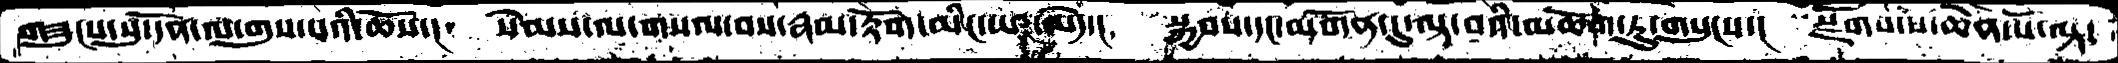གཟུངས་སུ་དོན་ལ་གུས་པའི་ཆོས་།  སེམས་ལ་གསལ་བས་རྣམ་རྟོག་མིང་ཡང་མེད་།  སྐྱབས་དང་མགོན་དུ་ལྟ་བའི་མཆོག་ཏུ་གསུངས་།  སྫོགས་པ་ཆེན་པོ་ལྟ་
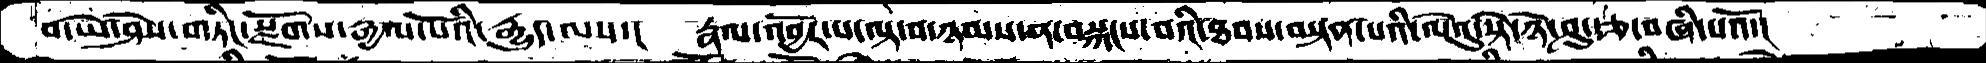བ་ཡེ་ཤེས་གཏིང་སྫོགས་རྒྱལ་པོའི་རྒྱུད་ལས་།  རྣམ་འབྱོར་པ་ལྟ་བ་ཉམས་ན་བསྐངས་བའི་ཐབས་བསྟན་པའི་ལེའུ་སྟེ་ཉེ་ཤུ་རྩ་བཞི་པའོ་།
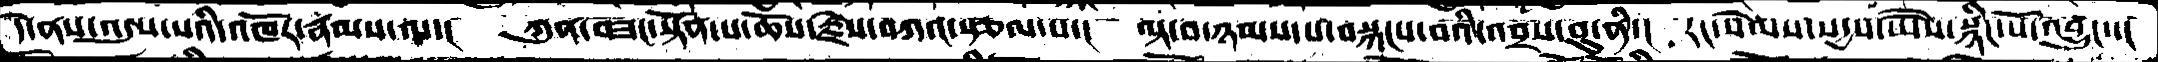དེ་ནས་འདུས་པའི་འཁོར་རྣམས་ལ་།  ཀུན་བཟང་སྟོན་པ་ཆོས་རྗེས་བཀའ་སྩལ་པ་།  ལྟ་བ་ཉམས་པ་བསྐངས་བའི་འབྲས་བུ་ནི་།  རང་སེམས་སདྱས་ཡཻས་སྙིང་པོ་འབྱུང་་།
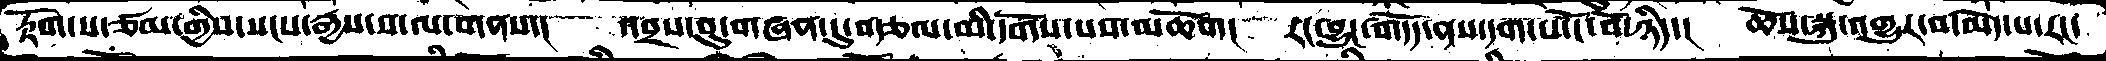རྟོག་པ་ཙམ་གྱིས་སངས་རྒྱས་ས་ལ་གནས་།  འབྲས་བུ་གཞན་དུ་བརྩལ་མི་དགོས་པས་མཆོག།   རང་བྱུང་གདོད་ནས་དག་པ་ངོ་བོ་ཉིད་།  ཆོས་སྐུ་འགྱུར་བ་མེད་པ་རང་
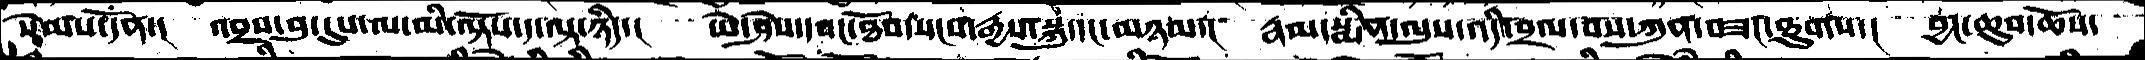སེམས་དོན་།   འབྲས་བུ་དུས་ལ་མི་ལྟོས་ད་ལྟ་ཉིད་།  ཡེ་ཤེས་དབང་ཐོབ་སངས་རྒྱས་སྐུ་དང་མཉམ་།  རྣམ་སྨིན་ལུས་འདི་བྲལ་བས་ཀུན་བཟང་ཐུགས་།  བྱང་ཆུབ་ཆོས་
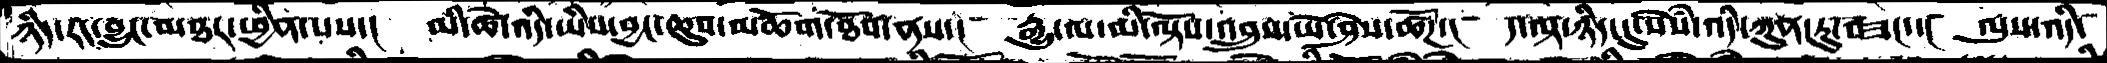ཉིད་རང་བྱུང་མཐར་ཕྱིན་པས་།  མི་ཚེ་འདི་ཡིས་བྱང་ཆུབ་མཆོག་ཐོབ་ནས་།  རྒྱུ་ལ་མི་ལྟོས་འབྲུས་ཡེ་ཤེས་ཚོཌ་།  ད་ལྟ་ཉིད་དུ་སེཾས་འདི་ཀུན་ཏུ་བཟང་་།  ལུས་འདི་
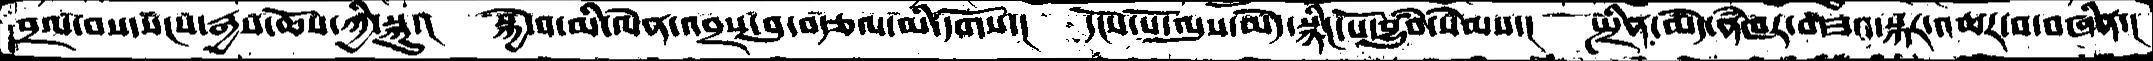བྲལ་བས་སངས་རྒྱས་ཆོས་ཀྱི་སྐུ་།   སྐྱེ་བ་མི་ལེན་འབྲས་བུ་བརྩལ་མི་དགོས་།  དངོས་པོ་ལུས་མེད་སྙིང་པོ་བྱུཾབ་སེམས་།  སྤྲིན་མེད་ནཾཁར་གཟའ་སྐར་འཆར་བ་བཞིན་།
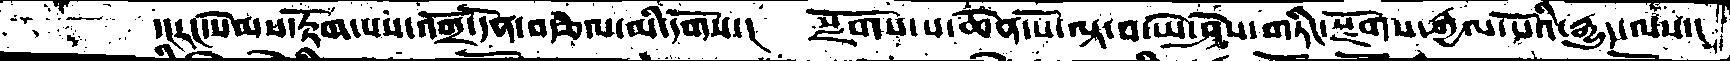ད།རང་སེམས་རྟོག་པས་འགྲོ་དོན་བརྩལ་མི་དགོས་།  སྫོགས་པ་ཆེན་པོ་ལྟ་བ་ཡེ་ཤེས་གཏིང་སྫོགས་རྒྱལ་པོའི་རྒྱུད་ལས་།
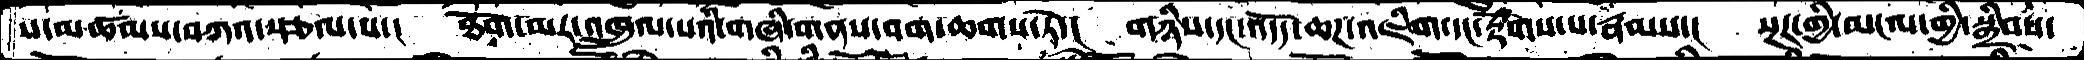ས་མཚམས་བཀའ་རྩལ་པ་།  ཐོག་མར་འཁྲུལ་པའི་གཞི་གནས་བག་ཆགས་ཏེ་།  གཉིས་དང་འདོད་ཆཌ་འཇིག་དང་རྟོགས་པ་རྣམས་།  སྔར་གྱི་མངལ་གྱི་སྒྲིབས་
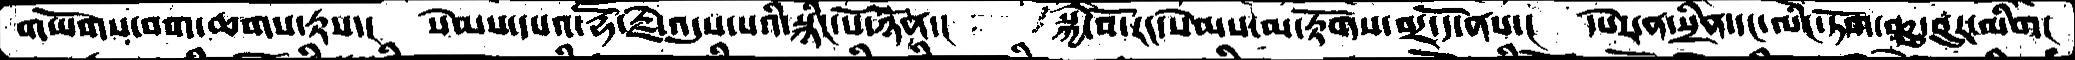གཡོགས་བག་ཆགས་རྟས་།  སེམས་དཔའ་རྡོ་རྗེ་འདུས་པའི་སྙིང་པོ་ཉོན་།  སྐྱེ་བོ་རང་སེམས་མ་རྟོགས་བར་དོ་ནས་།  དཔེར་ན་སྲིན་དང་ལིང་ཏོག་ཆུ་བུར་མིག།
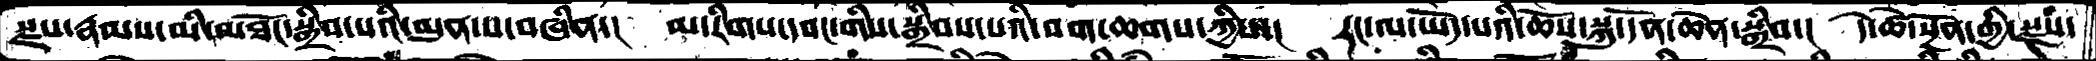སྫས་རྣམས་མི་མཐོང་སྒྲིབ་པའི་མུན་པ་བཞིན་།  མ་རིགས་དབང་གིས་སྒྲིབས་པའི་བག་ཆགས་ཀྱིས་།  རང་ལ་ཡོད་པའི་ཆོས་སྐུ་དོན་ཆེན་སྒྲིབ་།  དེ་ཚེ་སྔོན་གྱི་སྫས་
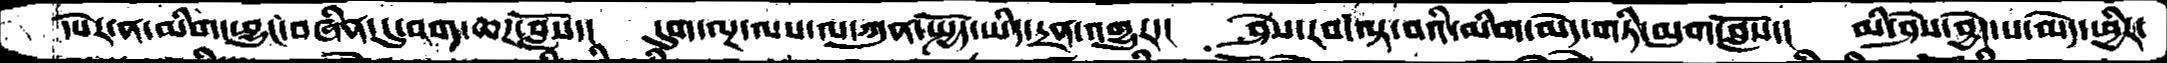དཔེར་ན་མིག་ཕྱུང་བཞིན་དུ་བག་ཆཌ་བློས་།   དུག་ལྔ་ལས་ལ་ཀུན་སྤྱོད་ཡིད་དྲན་འགྱུར་།  ཤེས་རབ་ལྟ་བའི་མིག་མེད་གཏི་མུག་བློས་།  མི་ཤེས་བྱེད་པ་མེད་ཕྱིར་
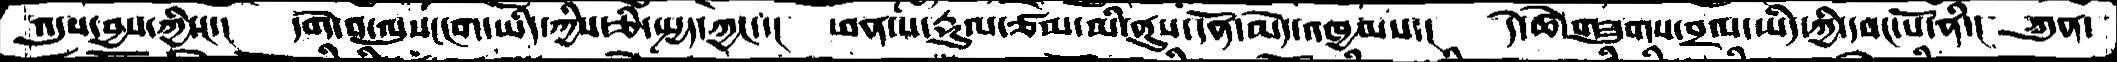འདུས་བྱས་ཀྱིས་།  དགེ་བ་ལུས་ངག་ཡིད་ཀྱིས་ཅི་སྤྱད་ཀྱང་་།  ཕན་པ་རྡུལ་ཙམ་མི་ནུས་དོན་མེད་འཁྱམས་།  དེ་ཚེ་གཟུགས་བྲལ་ཡིད་ཀྱི་དབང་པོ་ནི་།  ཀུན་
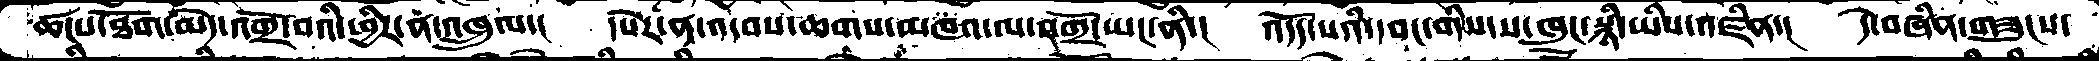ཚངས་ཐོག་མེད་འགྲོ་བའི་ཕྱིར་ན་འཁྲུལ་།   དཔེར་ན་འདབས་ཆགས་མཁའ་ལ་འགྲོ་ཡང་ནི་།   འདོད་པའི་དབང་གིས་ས་ཁུང་སྙི་ཡིས་འཛིན་།  དེ་བཞིན་གཟུངས་
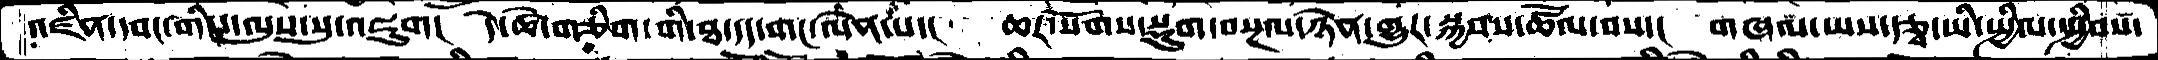འཛིན་དབང་གིས་ལུས་སུ་འཇུག།   དེ་ཚེ་གཅིག་གི་ཐ་དད་གང་ལེན་པ་།   ཆར་སོགས་སྡུག་བསྔལ་ཉེན་གྱུར་སྐྱབས་ཚོལ་བས་།  གཞལ་ཡས་རྩྭ་ཡི་སྤྱིལ་སྤྱིབས་
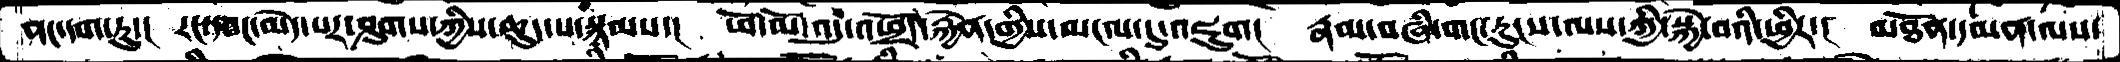ནང་དག་ཏུ་།   རང་དབང་མེད་པར་ཤུགས་ཀྱིས་ཆུད་པ་སྙམས་།  ཕོ་མོ་འདུ་འཕྲོད་རྐྱེན་གྱིས་མངལ་དུ་འཇུག།  རྣམ་བཞི་གང་རུངས་ལས་ཀྱི་སྐྱེ་བའི་ཕྱིར་།  མཐོན་དམན་ལས་
